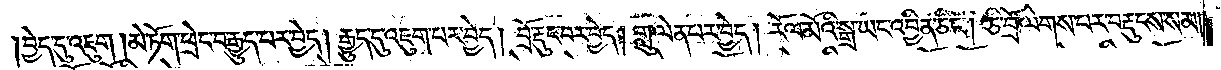བྱེད་དུ་འཇུག །མེ་ཏོག་ཕྲེང་བ་རྒྱུད་པར་བྱེད། རྒྱུད་དུ་འཇུག་པར་བྱེད། བྲོ་རྡུང་བར་བྱེད། གླུ་ལེན་པར་བྱེད། རོལ་མོའི་སྒྲ་ཡང་འབྱིན་ཅིང༌། ཅི་བྲོ་ལེགས་པར་བརྡུངས་སམ་
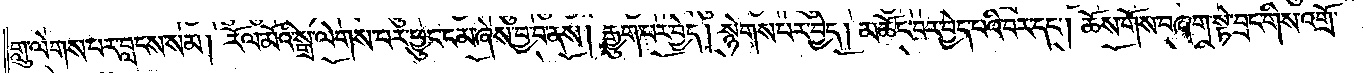གླུ་ལེགས་པར་བླངས་སམ། རོལ་མོའི་སྒྲ་ལེགས་པར་ཕྱུང་ངམ་ཞེས་བྱ་བ་ནས། རྒྱུག་པར་བྱེད། སྙེགས་པར་བྱེད། མཆོང་པར་བྱེད་པའི་བར་དང༌། ཆོས་གོས་བཞག་སྟེ་བྲང་གིས་འགྲོ་
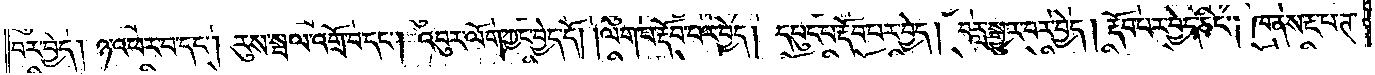བར་བྱེད། ཉ་འཕར་བ་དང༌། རུས་སྦལ་འགྲོ་བ་དང༌། འབུར་ལོག་ཀྱང་བྱེད་དོ། །ལག་པ་རྡོབ་པར་བྱེད། དཔུང་པ་རྡོབ་པར་བྱེད། བརླ་སྒྱུར་བར་བྱེད། རྡོབ་པར་བྱེད་ཅིང༌། ཁ་ནས་རྔ་པ་ཊ་
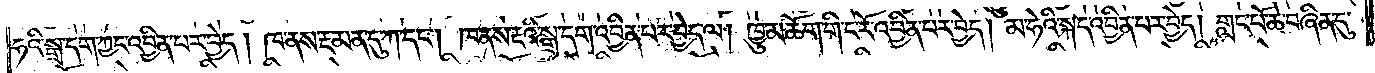ཧའི་སྒྲ་དག་ཀྱང་འབྱིན་པར་བྱེད། ཁ་ནས་རྔ་མན་དུ་ཀ་དང༌། ཁ་ནས་རྔའི་སྒྲ་དག་འབྱིན་པར་བྱེད་ལ། ཁྱུ་མཆོག་གི་ང་རོ་འབྱིན་པར་བྱེད། མ་ཧེའི་སྐད་འབྱིན་པར་བྱེད། གླང་པོ་ཆེ་བཞིན་དུ་
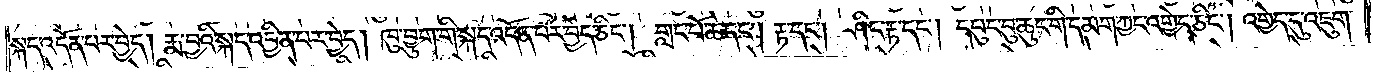སྐད་འདོན་པར་བྱེད། རྨ་བྱའི་སྐད་འབྱིན་པར་བྱེད། ཁུ་བྱུག་གི་སྐད་འདོན་པར་བྱེད་ཅིང༌། གླང་པོ་ཆེ་དང༌། རྟ་དང༌། ཤིང་རྟ་དང༌། དཔུང་བུ་ཆུང་གི་དམག་ཀྱང་འགྱེད་ཅིང༌། འགྱེད་དུ་འཇུག་
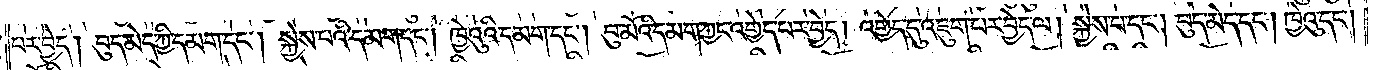པར་བྱེད། བུད་མེད་ཀྱི་དམག་དང༌། སྐྱེས་པའི་དམག་དང༌། ཁྱེའུའི་དམག་དང༌། བུ་མོའི་དམག་ཀྱང་འགྱེད་པར་བྱེད། འགྱེད་དུ་འཇུག་པར་བྱེད་ལ། སྐྱེས་པ་དང༌། བུད་མེད་དང༌། ཁྱེའུ་དང་།
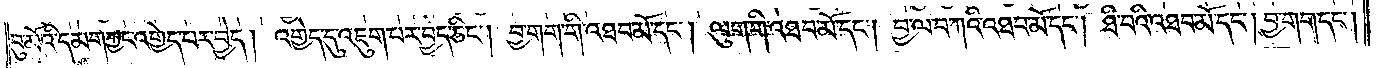བུ་མོའི་དམག་ཀྱང་འགྱེད་པར་བྱེད། འགྱེད་དུ་འཇུག་པར་བྱེད་ཅིང༌། བྱ་གག་གི་འཐབ་མོ་དང༌། ལུག་གི་འཐབ་མོ་དང༌། བྱ་ལ་བ་ཀའི་འཐབ་མོ་དང༌། ཐི་བའི་འཐབ་མོ་དང༌། བྱ་གག་དང་།
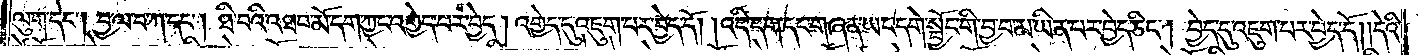ལུག་དེང༌། བྱ་ལ་བ་ཀ་དང༌། ཐི་བའི་འཐབ་མོ་དག་ཀྱང་འགྱེད་པར་བྱེད། འགྱེད་དུ་འཇུག་པར་བྱེད་དོ། །འདི་དག་དང་གཞན་ཡང་དགེ་སྦྱོང་གི་བྱ་བ་མ་ཡིན་པར་བྱེད་ཅིང༌། བྱེད་དུ་འཇུག་པར་བྱེད་དོ། །དེའི་
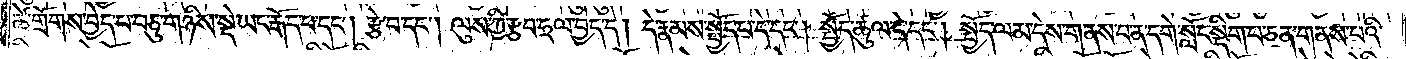ཚེ་གྲོགས་བྱེད་པ་བཅུ་གཉིས་སྡེ་ཡང་རྒོད་པ་དང༌། རྩེ་བ་དང༌། ལུས་ཀྱི་རྩབ་ཧྲལ་བྱེད་དེ། དེ་རྣམས་སྤྱོད་པ་དེ་དང༌། སྤྱོད་ཚུལ་དེ་དང༌། སྤྱོད་ལམ་དེས་གནས་པ་ན་དགེ་སློང་སྡིག་པ་ཅན་གནས་པའི་
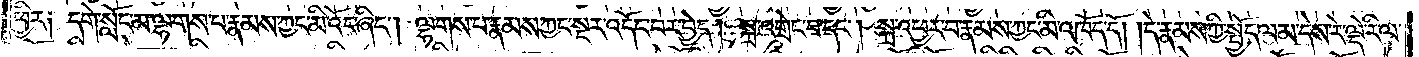ཕྱིར༑ དགེ་སློང་མ་ལྷགས་པ་རྣམས་ཀྱང་མི་འོང་ཞིང༌། ལྷགས་པ་རྣམས་ཀྱང་སྔར་འདོང་བར་བྱེད། སྐྲ་འགྲེང་བ་དང༌། སྐྲ་འཕྱར་བ་རྣམས་ཀྱང་མི་འཁོད་དོ། །དེ་རྣམས་ཀྱི་སྤྱོད་ལམ་དེས་རེ་ལྡེ་རི་ལ་
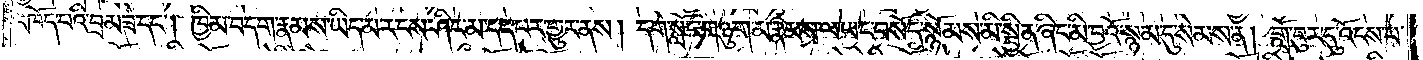འཁོད་པའི་བྲམ་ཟེ་དང༌། ཁྱིམ་བདག་རྣམས་ཡིད་མ་རངས་ཤིང་མ་དད་པར་གྱུར་ནས། དགེ་སློང་གཉུག་མ་རྣམས་ལ་ཡང་བསོད་སྙོམས་མི་སྦྱིན་ཞིང་མི་བྱའོ་སྙམ་དུ་སེམས་ན། གློ་བུར་དུ་འོངས་པ་
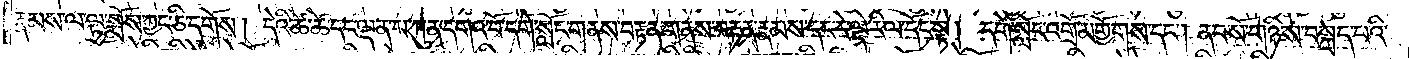རྣམས་ལ་ལྟ་སྨོས་ཀྱང་ཅི་དགོས། དེའི་ཚེ་ཚེ་དང་ལྡན་པ་ཀུན་དགའ་བོ་དགེ་སློང་གནས་བརྟན་གནས་བརྟན་རྣམས་དང་རེ་ལྡེ་རི་ལ་དོང་སྟེ། དགེ་སློང་འགྲོ་མགྱོགས་དང༌། ནབ་སོ་གཉིས་བསྐྲད་པའི་
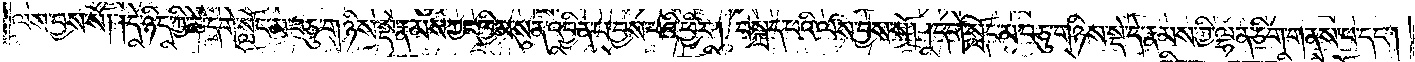ལས་བྱས་སོ། །དེ་ཉིད་ཀྱི་ཚེ་དགེ་སློང་མ་བཅུ་གཉིས་སྡེ་རྣམས་ཀྱང་ཁྱིམ་སུན་འབྱིན་པ་བྱས་པའི་ཕྱིར། བསྐྲད་པའི་ལས་བྱས་སོ། །དགེ་སློང་མ་བཅུ་གཉིས་སྡེ་དེ་རྣམས་ཀྱི་ལྷན་ཅིག་གནས་པ་དང༌།
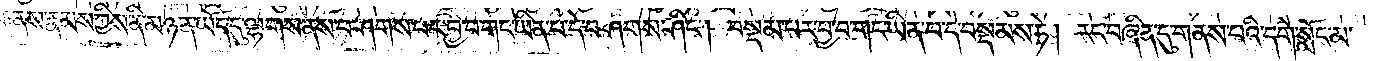ཉེ་གནས་རྣམས་ཀྱིས་ནི་མཉན་ཡོད་དུ་ལྷགས་ནས་བཤགས་པར་བྱ་བ་གང་ཡིན་པ་དེ་བཤགས་ཤིང༌། བསྡམ་པར་བྱ་བ་གང་ཡིན་པ་དེ་བསྡམས་ཏེ། རང་བཞིན་དུ་གནས་པའི་དགེ་སློང་མ་
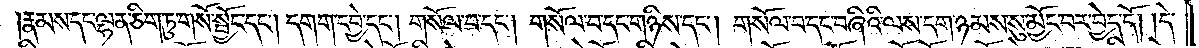རྣམས་དང་ལྷན་ཅིག་ཏུ་གསོ་སྦྱོང་དང༌། དགག་དབྱེ་དང༌། གསོལ་བ་དང༌། གསོལ་བ་དང་གཉིས་དང༌། གསོལ་བ་དང་བཞིའི་ལས་དག་ཉམས་སུ་མྱོང་བར་བྱེད་དོ། །དེ་
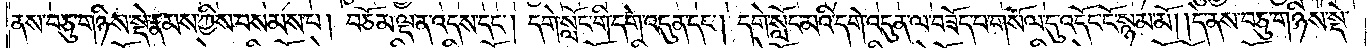ནས་བཅུ་གཉིས་སྡེ་རྣམས་ཀྱིས་བསམས་པ། བཅོམ་ལྡན་འདས་དང༌། དགེ་སློང་གི་དགེ་འདུན་དང༌། དགེ་སློང་མའི་དགེ་འདུན་ལ་བཟོད་པ་གསོལ་དུ་འདོང་ངོ་སྙམ་མོ། །དེ་ནས་བཅུ་གཉིས་སྡེ་
